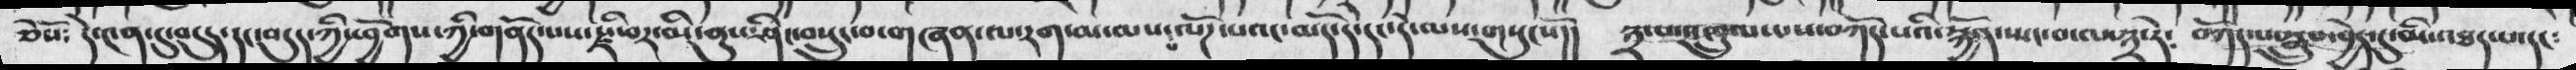ཅེསོ༴   དེ་༤ན་དུ་བདུད་དང་བདུད་ཀྱི་ཕྱོགས་ཀྱི་གནོད་པས་རྫི་བར་མི་ནུས་ཤིང་བསྲུང་བ་གཞན་ལ་རག་མ་ལས་པ་ལོཌ་པའང་མདོ་དེ་དང་དེ་ལས་གསུངསོ།།  ༣་པ་འཁྲུལ་པས་བཀོད་པའི་སྐྱོན་སྤང་བ་ལ་༣་ཏེ༴   བཀོད་པ་སྒྲུབ་བྱེད་དུ་མི་འཐད་པ་དང༴
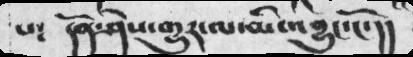པ༴  དོན་ཤེས་གྱུར་ལ་མི་འབྱུང་ངོ་།།
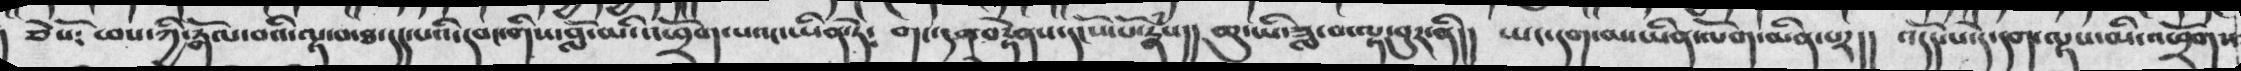ཅེསོ༴  ཕས་ཀྱི་རྒོལ་བའི་ལྟ་བ་ཐ་དད་པའི་དབང་གིས་བློ་མི་འཕྲོག་པའང་ཡིན་དེ༴  གང་དག་བརྟེནས་དངོས་་པོ་རྣཾས།།  ཆུ་ཡི་ཟླ་བ་ལྟ་བུར་ནི།།  ཡང་དག་མ་ཡིན་ལོག་མིན་པར།།  འདོད་པ་དེ་དག་ལྟས་མི་འཕྲོགས
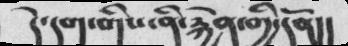དེ་དག་གིས་ནི་རྐྱེན་གྱི་དོན།།
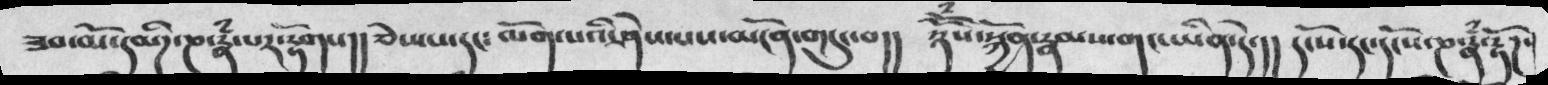ཟབ་མོ་དམིཌ་ཎ་རྣཾ་པར་རྟོགས།།  ཅེཡང་དང༴  ལོག་པའི་ཤེས་པས་མངོན་གདུང་བ།།  ཉོོཾས་སྐྱོན་རྣམས་གང་ཡིན་དེ་།།  དངོས་དང་དངོས་ཎ་རྣཾ་རྟོཌ་
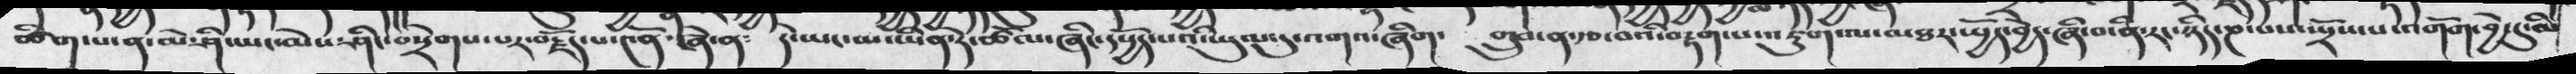ཚིག་པ་ན་མེ་ཤི་ཡང་མེས་ཤིང་བསྲེགས་པར་བརྗོད་པ་༤ནོ་ཞེ་ན༴  དེ་ཡང་མ་ཡིན་དེ་ཚོལ་ཞིང་དཔྱོད་པའི་ཡུལ་དུ་འགའ་ཞིག་   གྲུབ་ན་རྩ་བ་འི་བརྟག་པ་འཇུག་ལ་མཐར་སྤྱོད་བྱེད་ཞི་བ་ནི་རང་ཉིད་ཎ་པ་འསྤྲོས་པ་འགོག་བྱེད་དུ་མི
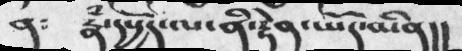ན༴  སྣཾ་དཔྱོད་ལ་ནི་རྟེན་ཡོད་མིན།།
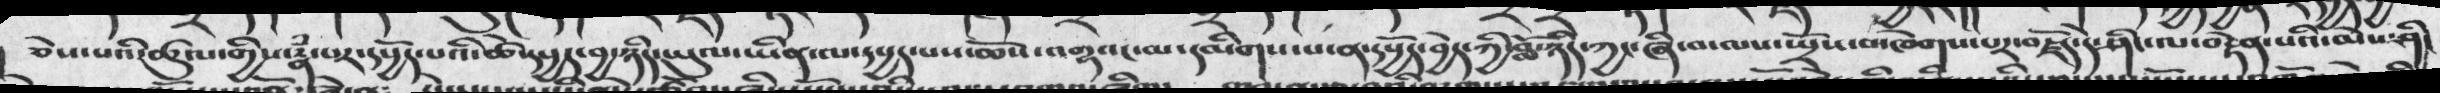ཅེས་པའི་ཚུལ་གྱིས་རྣཾ་པར་དཔྱོད་པི་ཚེ་དཔྱད་བྱ་ཉིད་ཡུལ་ཡིན་ལ་དཔྱད་པས་ཆོས་འགྷའང་མ་དམིགས་པ་ན་དཔྱོད་བྱེད་ཀྱི་བློ་ཉིད་ཀྱང་ཞི་བ་ལས་སྤྲོས་བ་ཁེགས་པར་བརྗོད་ཤིང་ལ་བརྟེན་པའི་མེས་ཤིང་།
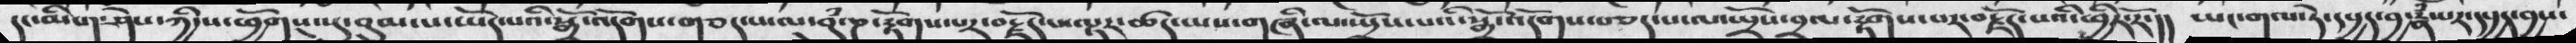དང་མིག་ཤེས་ཀྱི་ས་ཕྱོགས་དུ་བུམ་པ་ཡོད་པའི་སྒྲོ་འདོགས་གཅད་པ་ལ་བུཾ་ཎ་རྟོགས་པར་བརྗོད་པ་ལྟར་ཚད་ཡས་གཞི་ལ་སྤྲོས་པའི་སྒྲོ་འདོག་བཅེད་པ་ལ་སྤྲོས་བྲལ་རྟོགས་པར་བརྗོད་པའི་ཕྱིར་རོ་།།  ཡང་གལ་དེ་དཔྱད་བྱ་རྣཾ་པར་དཔྱད་བྱས་
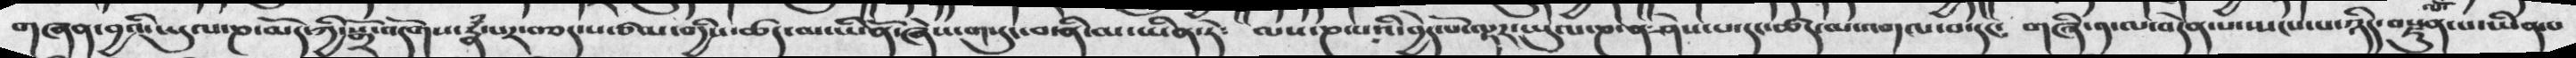གཞན་བྱའི་ཡུལ་ཎ་མོད་ཀྱི་སྒྲོ་འདོགས་རྣཾ་པར་བཅད་པ་ཙམ་གྱིས་ཚད་མ་ཡིནོ་ཞེས་གསུང་བ་ནི་མ་ཡིན་ཏེ༴  ལས་ཎ་པའི་བྱེད་པོ་ལྟར་ཡུལ་ཎ་ན་ཤེས་པ་དང་ཚད་མ་འགལ་བ་དང༴  གཞི་༡་ལ་བདེན་པ་སྤངས་པ་ཉིད་བརྫུན་པ་ཡིན་པ
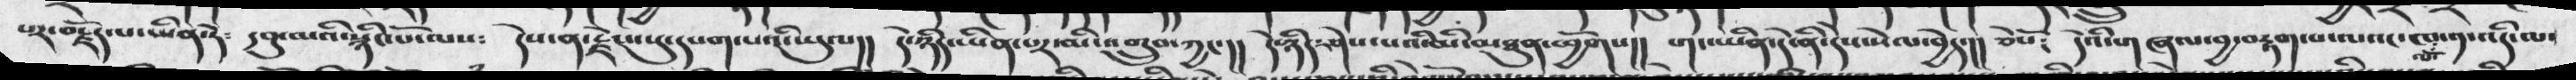པར་བརྗོད་པ་ཡིན་ཏེ༴  དབུ་མའི་སྙིང་པོ་ལས༴  དེས་ན་རྗེས་སུ་དཔག་པའི་ཡུལ།།  དེ་ཉིད་ཡིན་པར་མི་འགྲུབ་ཀྱང་།།  དེ་ཉིད་ཤེས་པའི་མི་མཐུན་ཕྱོགས།།  གང་ཡིན་དེ་ནི་དེས་སེལ་བྱེད།།  ཅེསོ༴  དེའི་གཞལ་བྱ་བརྟག་པ་ལའང་ཁ་༡་འདི་ལ་
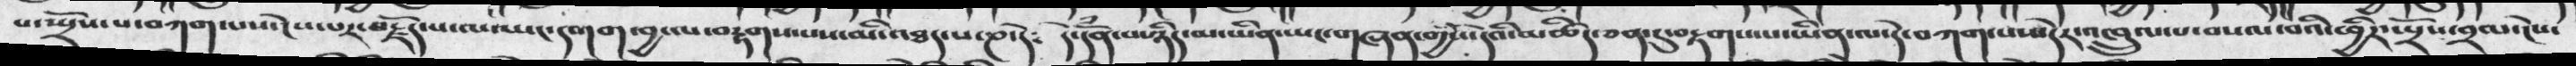པ་སྤྲོས་པ་བཀག་པས་ངེས་པར་བརྗོད་པ་ལ་ཡང་དགག་བྱ་ལ་བརྟགས་པས་མི་འཐད་པ་ཎ་དེ༴  དེ་དོཾན་པས་ཉིད་མ་ཡིན་ཡང་གཞན་གྱིས་དེའི་མཚིད་ཅན་དུ་བརྟགས་པ་ཡིན་ལ་དེ་བཀག་པས་དེར་འཁྲུལ་པ་བསལ་བའི་ཕྱིར་སྤྲོས་བྲལ་ངེས་
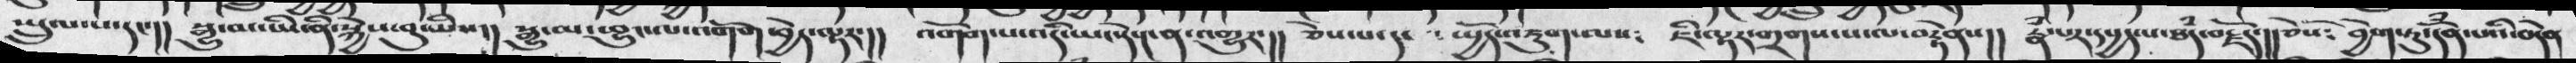སྤྲུལ་པ་དང་།།  སྒྱུ་མ་ཡི་ནི་སྐྱེས་བུ་ཡིས།།  སྒྱུ་མ་ཕྱུང་ལ་འགོག་ཕྱེད་ལྟར་།། འགོག་པ་འདི་ཡང་དེ་བ༤ིན་འགྱུར་།། ཅེས་པ་དང  སྤྱོད་འཇུག་ལས༴  ཇི་ལྟར་གྲགས་པ་ལ་བརྟེནས།།  རྣཾ་པར་དཔྱད་ལ་ཐཾད་བརྗོད།  ཅེསོ༴  བྱེག་ཏུ་དོཾན་པའི་བདེན
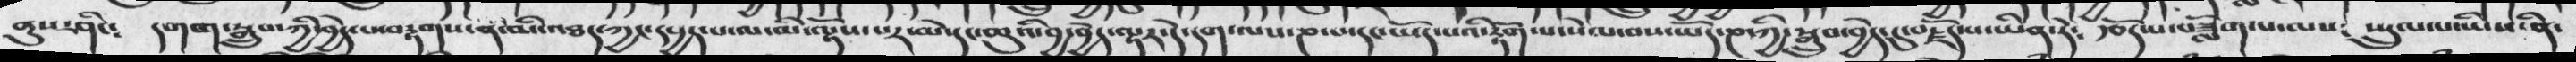ནུས་ཤིང༴    དགག་སྒྲུབ་ཀྱི་བྱིད་པ་བསྟགས་ན་མི་འཐད་ཀྱང་དཔྱད་པ་ལ་མི་ལྟོས་པར་མེ་དང་ཆུའི་བྱ་བྱེད་ལྟར་དེ་དག་ལས་ཎ་པ་དང་ཡོད་པའི་རྟོག་པ་པེལ་བས་ཡོད་ཎ་ཀྱི་སྒྲུབ་བྱེད་དུ་བརྗོད་པ་ཡིན་དེ༴  རྩོད་པ་བཟློག་པ་ལས༴  སྤྲུལ་པའི་ས་ནི་
